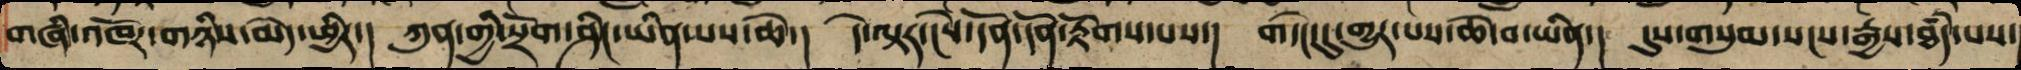གཞི་འཁོར་གཉིས་མེད་ཕྱིར་།  ཀུན་གྱི་སྲོག་ཤིང་ཡིན་པས་ཆེ་།  དེ་ལྟར་ངེས་དོན་དོན་རྟོགས་པས་།  གདེང་དུ་གྱུར་པས་ཆེ་བ་ཡིན་།  དུས་གསུམ་སངས་རྒྱས་ཐཾད་པས་
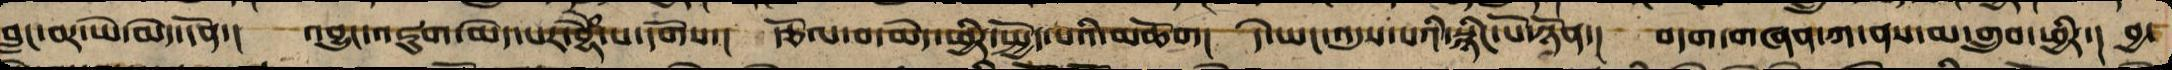བླང་བར་ཡེ་མེད་དོན།   འབྱུང་འཇུག་མེད་པར་བྷོོོཾ་པ་དགོས།   རྩོལ་བ་མེད་ཕྱིར་སྤྱོད་པའི་མཆོག།    དེ་ཡང་འདུས་པའི་སྙིང་པོ་ཉོན།    བདག་གཞན་ཀ་ནས་མ་གྲུབ་ཕྱིར། བྱ་
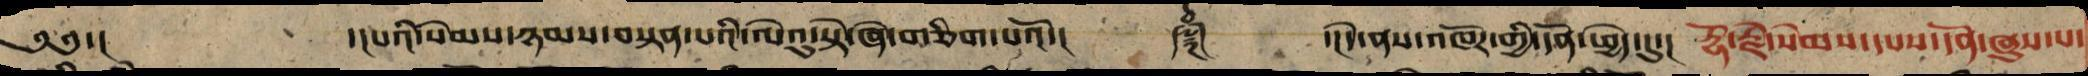༄༅།    ་།པའི་སེམས་ཉམས་བསྟན་པའི་ལེའུ་སྟེ་ཞེ་གཅིག་པའོ།། ༈   ་།།དེ་ནས་འཁོར་གྱི་དོན་ཕྱེད་དུ་།   རྡོ་རྗེ་སེམས་དཔས་དོན་ཞུས་པ་
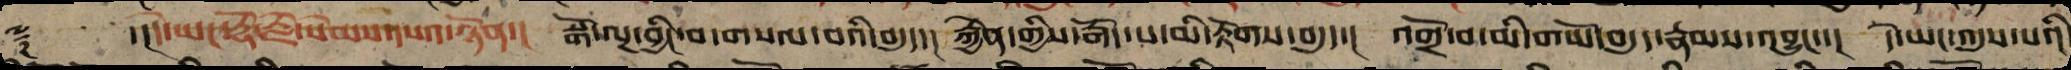༈     ་།།དེ་ཡང་རྡོ་རྗེ་སེམས་དཔའ་ཉོན་།  སྒོ་ལྔ་བྱིང་བ་གསལ་བའི་བདུད་།  རྐྱེན་གྱིས་རྒོད་པ་མི་རྟོག་བདུད་།  འགྲོ་བ་མི་གཡོའི་བདུད་རྣམས་འབྱུང་་། དེ་ཡང་འདུས་པའི་
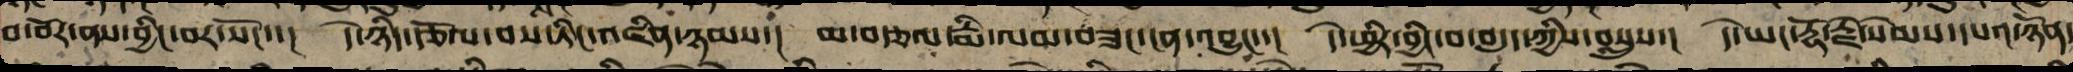བ་བོར་ནས་བྱིང་བར་སོང་་།  དེ་ཉིད་རྩོལ་བས་ཏིང་འཛིན་ཉམས་། མ་བརྩལ་རྨི་ལམ་བཟང་ངན་འབྱུང་་།  དེ་ཕྱིར་བྱིང་བ་བདུད་ཀྱིས་བསླུས་།  དེ་ཡང་རྡོ་རྗེ་སེམས་དཔའ་ཉོན་
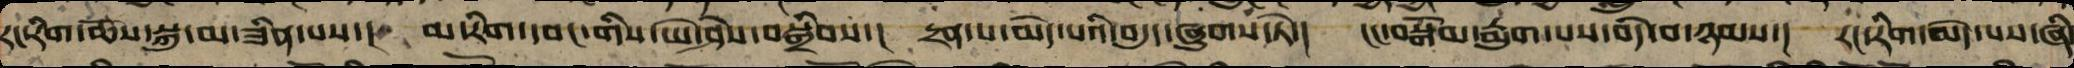རང་རིག་ཆོས་སྐུ་མ་ཟིན་པས་།  མ་རིག་དབང་གིས་ཡེ་ཤེས་བསྒྲིབས་།  དྲན་པ་མེད་པའི་བདུད་ཞུགས་ཏེ་།  ངང་བསྒོམ་རྨུག་པས་བདེ་བ་ཉམས།  རང་རིག་མེད་པས་ཞི
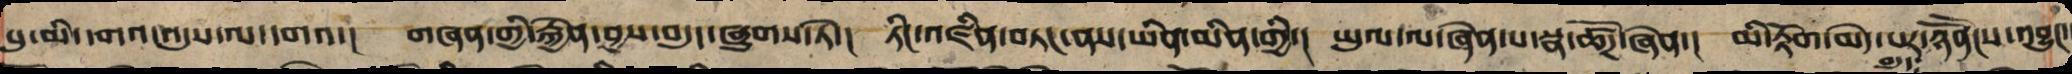པུ་མི་དགའ་འདུས་ལ་དགའ་།  གཞན་གྱི་རྐྱེན་བྱས་བདུད་ཞུགས་ཏེ་།  ཏིང་འཛིན་བཏང་ནས་ཡིན་མིན་གྱི་།  ཡུལ་ལ་ཞེན་པ་སྣ་ཚོཌ་ཞེན་།  མི་རྟོག་མེད་པར་ཉཽནངས་འབྱུང་
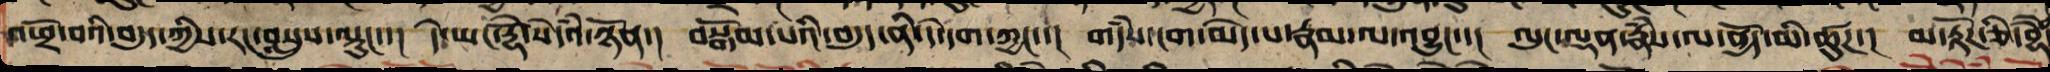འཕྲོ་བའི་བདུད་ཀྱིས་རང་བསླུས་ལྟུང་་།  དེ་ཡང་རྡོེ་སེདཾའ་ཉོན་།  བསྒོམ་པའི་བདུད་ནི་དེ་དག་ཀྱང་་། གདཾས་ངག་མེད་པ་རྣམ་ལ་འབྱུང་་།  ལུང་ལྡན་རྣཾས་ལ་ནྱོད་མི་ཚུཌ་།  མ་རྟོཌ་ཅི་བྷཻ་
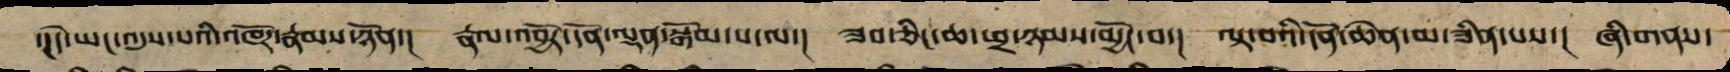་།དེ་ཡང་འདུས་པའི་འཁོར་རྣམས་ཉོན་།  རྣལ་འབྱོར་དོན་ལྡན་སྒོམ་པ་ལ་།  ཟབ་ཅིང་ཆ་ཕྲ་ཉམས་མྱོང་བ་།  ལྟ་བའི་དོན་ཆེན་མ་ཟིན་པས་།  ཞི་གནས་
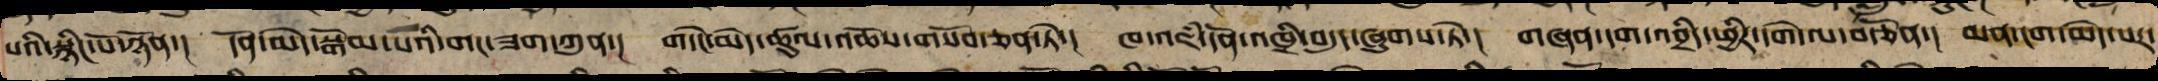པའི་སྙིང་པོ་ཉོན་།  དོན་མེད་སྒོམ་པའི་གང་ཟག་ཀུན་།  གདེང་མེད་ཚུལ་འཆོས་གསོབ་ཅན་ཏེ་།  ཁ་འཇཾ་དོན་འཁྲི་བདུད་ཞུགས་ཏེ་།  གཞན་དག་འབྲིད་ཕྱིར་དགེ་ལ་བརྩོན་།  མན་ངག་མེད་པར་
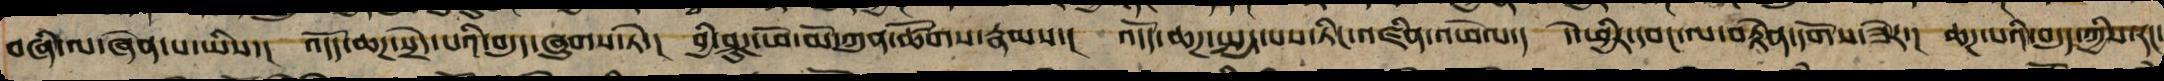བཞི་ལ་ཞེན་པ་ཡིས་།  འདོད་ཆཌ་སྲེད་པའི་བདུད་ཞུགས་ཏེ་།  བྱི་ཤུཌ་ཕོ་མོ་ཀུན་ཚོགས་རྣམས་།  འདོད་ཆཌ་སྤྱད་པས་ཏིང་འཛིན་འཕེལ་།  དེ་ཕྱིར་དབང་ལ་བརྟེན་དགོས་ཟེར་།  ཆཌ་པའི་བདུད་ཀྱིས་རང་
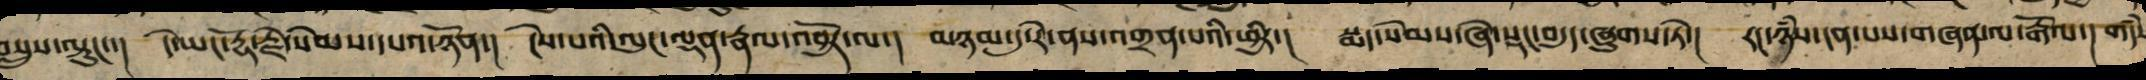བསླུས་ལྟུང་་། དེ་ཡང་རྡོ་རྗེ་སེམས་དཔའ་ཉོན་།  ངེས་པའི་ལུང་ལྡན་རྣལ་འབྱོར་ལ།  མཉམ་དུ་རེ་ནས་འགྲན་པའི་ཕྱིར་། སྨད་སེམས་ཞེ་སྡང་བདུད་ཞུགས་ཏེ་།  རང་ཉཾས་ངན་པས་གཞན་ལ་རྒོལ་།  གདཾ
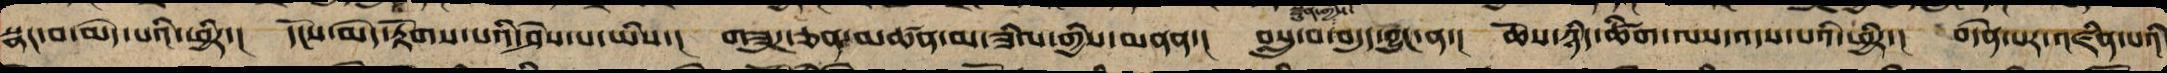སྣང་བ་མེད་པའི་ཕྱིར།   དངོས་མེད་རྟོགས་པའི་ཤེས་པ་ཡིས།   གཟུཌ་ཅན་མཚན་མ་ཟིལ་གྱིས་མནན།    བསླུ་བ་རྫུན་གྱིས་བདུད་བྱུང་ན།   ཆོས་ཉིད་ཚིག་ལས་འདས་པའི་ཕྱིར།   བདེན་པར་འཛིན་པའི་
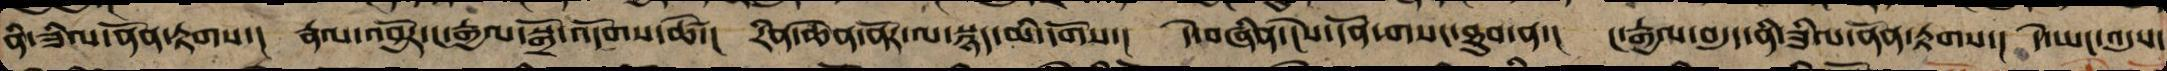ནི་ཟིལ་ནོན་རྟགས་།  རྣལ་འབྱོར་ང་རྒྱལ་སྒྲོ་འདོགས་ཚེ་།  རིན་ཆེན་ནོར་ལ་སྙད་མི་དགོས་།  དེ་བཞིན་ངེས་དོན་གསང་ཐུབ་ན་།  ང་རྒྱལ་བདུད་ནི་ཟིལ་ནོན་རྟགས་།  དེ་ཡང་འདུས་
